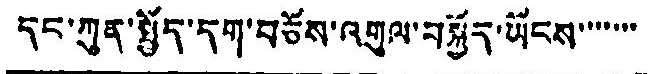དང་ཀུན་སྤྱོད་དག་བཅོས་འགུལ་བསྐྱོད་ཡོངས་་་་་་་
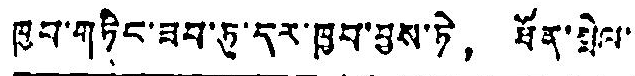ཁྱབ་གཏིང་ཟབ་ཏུ་དར་ཁྱབ་བྱས་ཏེ， ཐོན་སྤེལ་
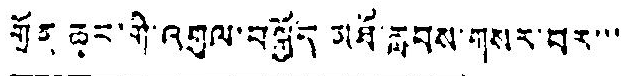གྲོན ཆུང་གི་འགུལ་བསྐྱོད མཐོ་རླབས་གསར་བར་་་
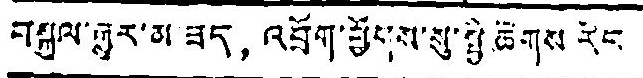བསྐུལ་རྒྱུར་མ ཟད， འབྲོག་ཕྱོགས་སུ་སྤྱི ཚོགས རང་
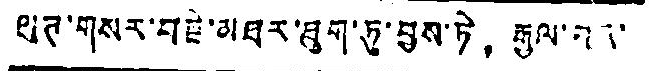ལུཊ་གསར་བརྗེ་མཐར་ཐུག་ཏུ་བྱས་ཏེ， རྒྱལ་བའི་
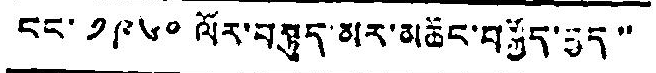ངང་ ༡༩༦༠ ལོར་བསྟུད་མར་མཆོང་བསྐྱོད་བྱད་་་
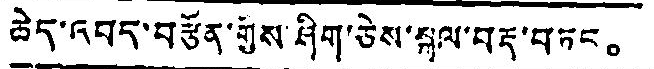ཆེད་འབད་བརྩོན་གྱིས་ཤིག་ཅེས་སྐུལ་བརྡ་བཏང。
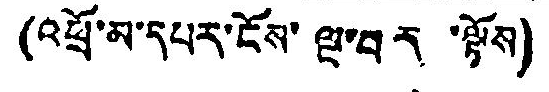(འཕྲོ་མ་དཔར་ངོས་ལྔ་བར ་ལྟོས)
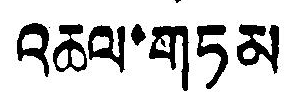འཆལ་གཏམ
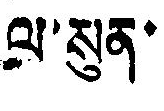ལ་སུན་
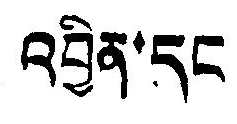འབྱིན་དང
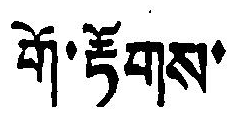གོ་རྟོགས་
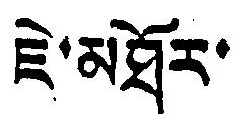ཇེ་མཐོར་
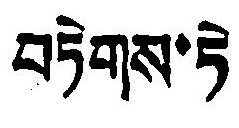བཏེགས་ཏེ
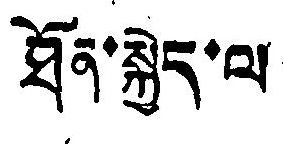ཐོན་སྐྱེད་ལ
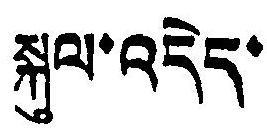སྐུལ་འདེད་
